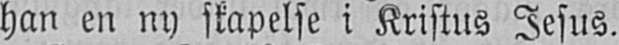han en ny skapelse i Kristus Jesus.
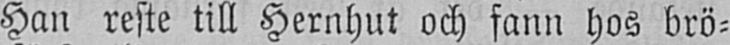Han reste till Hernhut och fann hos brö-
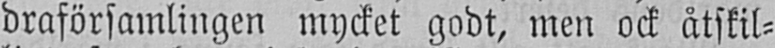draförsamlingen mycket godt, men ock åtskil-
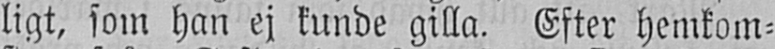ligt, som han ej kunde gilla. Efter hemkom-
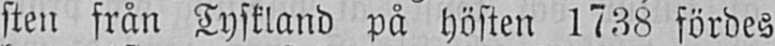sten från Tyskland på hösten 1738 fördes
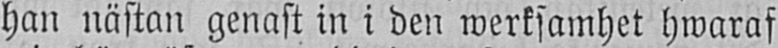han nästan genast in i den werksamhet hwaraf
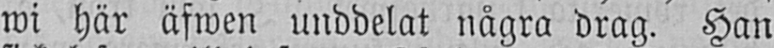wi här äfwen unddelat några drag. Han
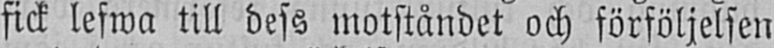fick lefwa till dess motståndet och förföljelsen
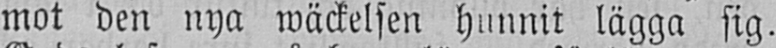mot den nya wäckelsen hunnit lägga sig.
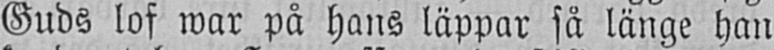Guds lof war på hans läppar så länge han
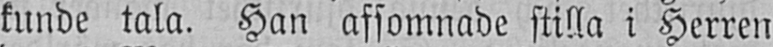kunde tala. Han afsomnade stilla i Herren
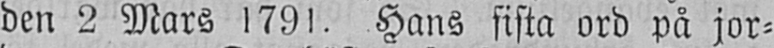den 2 Mars 1791. Hans sista ord på jor-
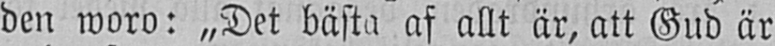den woro: „Det bästa af allt är, att Gud är
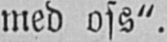med oss".
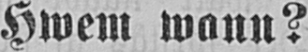Hwem wann?
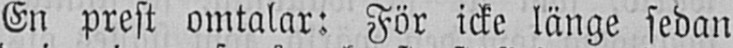En prest omtalar: För icke länge sedan
